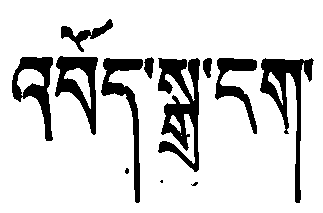འབོད་སྒྲ་དག་
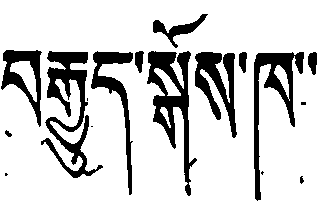བརྒྱུད་སྒོས་ཁ་་
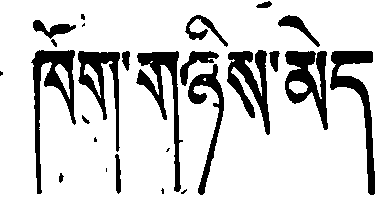ཁག་གཉིས་མེད
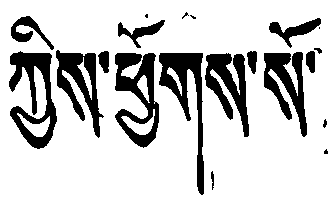ཀྱིས་ཕྱོགས་སོ་
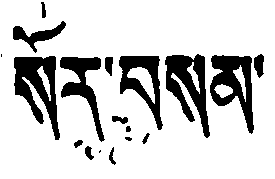སོར་བསམ་
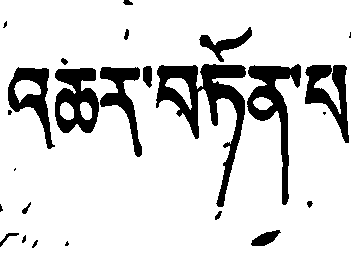འཆར་བཏོན་པ
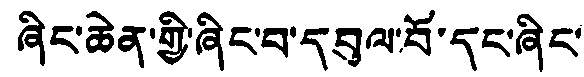ཞིང་ཆེན་གྱི་ཞིང་བ་དབུལ་བོ་དང་ཞིང་
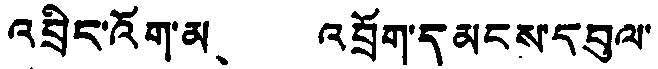འབྲིང་འོག་མ、 འབྲོག་དམངས་དབུལ་
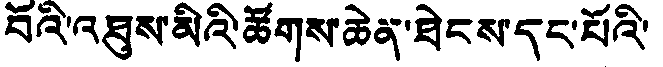བོའི་འཐུས་མིའི་ཚོགས་ཆེན་ཐེངས་དང་པོའི་
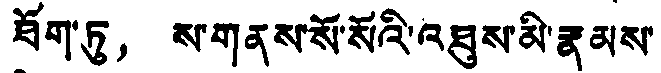ཐོག་ཏུ， ས་གནས་སོ་སོའི་འཐུས་མི་རྣམས་
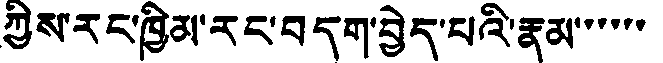ཀྱིས་རང་ཁྱིམ་རང་བདག་བྱེད་པའི་རྣམ་་་་་་་
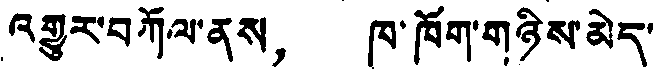འགྱུར་བཀོལ་ནས， ཁ་ཁོག་གཉིས་མེད་
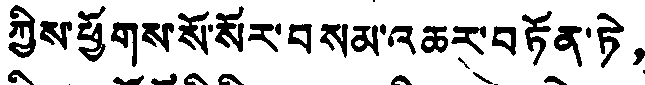ཀྱིས་ཕྱོགས་སོ་སོར་བསམ་འཆར་བཏོན་ཏེ，
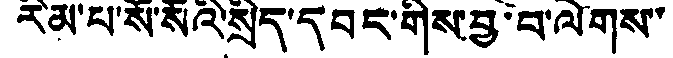རིམ་པ་སོ་སོའི་སྲིད་དབང་གིས་བྱ་བ་ལེགས་་
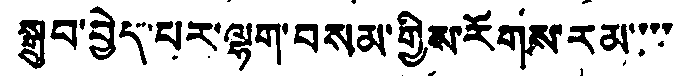སྒྲུབ་བྱེད་པར་ལྷག་བསམ་གྱིས་རོགས་རམ་་་་
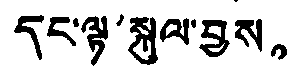དང་ལྟ་སྐུལ་བྱས。
